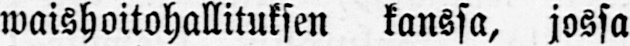waishoitohallituksen kanssa, jossa
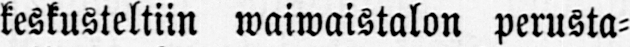keskusteltiin waiwaistalon perusta-
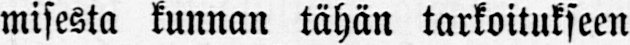misesta kunnan tähän tarkoitukseen
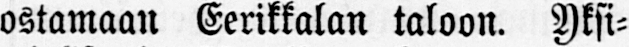ostamaan Eerikkalan taloon. Yksi-
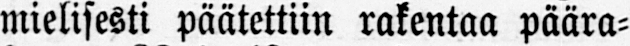mielisesti päätettiin rakentaa päära-
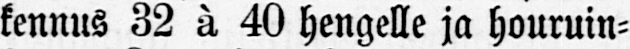kennus 32 à, 40 hengelle ja houruin-
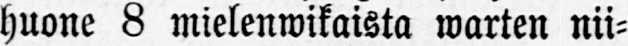huone 8 mielenwikaista warten nii-
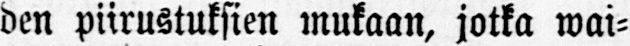den piirustuksien mukaan, jotka wai-
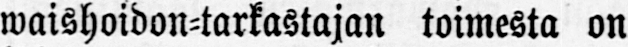waishoidon-tarkastajan toimesta on
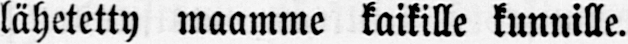lähetetty maamme kaikille kunnille.
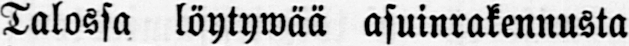Talossa löytywää asuinrakennusta
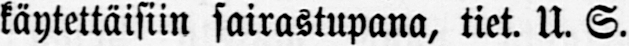käytettäisiin sairastupana, tiet. U. S.
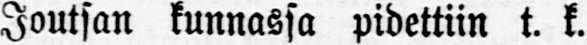Joutsan kunnassa pidettiin t. k.
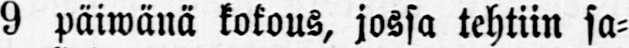9 päiwänä kokous, jossa tehtiin sa-
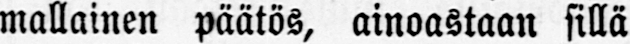mallainen päätös, ainoastaan sillä
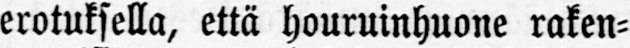erotuksella, että houruinhuone raken-
